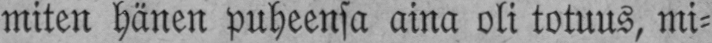miten hänen puheensa aina oli totuus, mi-
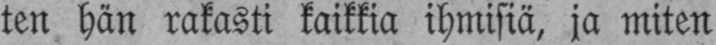ten hän rakasti kaikkia ihmisiä, ja miten
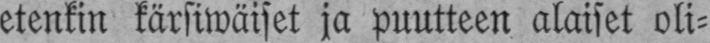etenkin kärsiwäiset ja puutteen alaiset oli-
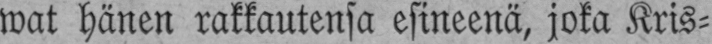wat hänen rakkautensa esineenä, joka Kris-
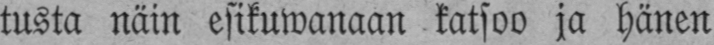tusta näin esikuwanaan katsoo ja hänen
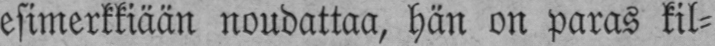esimerkkiään noudattaa, hän on paras kil-
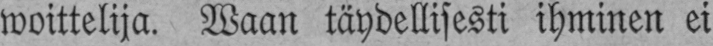woittelija. Waan täydellisesti ihminen ei
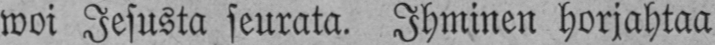woi Jesusta seurata. Ihminen horjahtaa
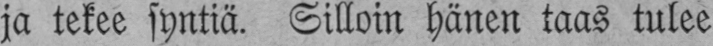ja tekee syntiä. Silloin hänen taas tulee
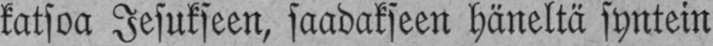katsoa Jesukseen, saadakseen häneltä syntein
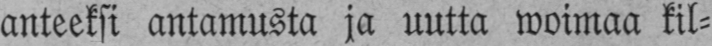anteeksi antamusta ja uutta woimaa kil-
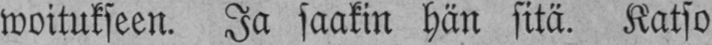woitukseen. Ja saakin hän sitä. Katso
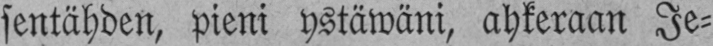sentähden, pieni ystäwäni, ahkeraan Je-
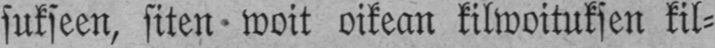sukseen, siten woit oikean kilwoituksen kil-
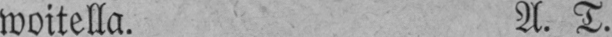woitella. A. T.
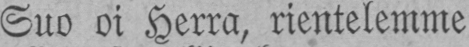Suo oi Herra, rientelemme
